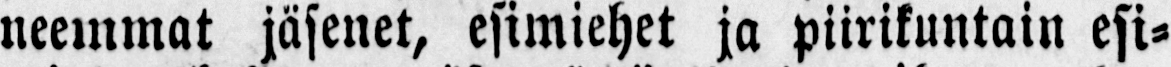neemmat jäsenet, esimiehet ja piirikuntain esi-
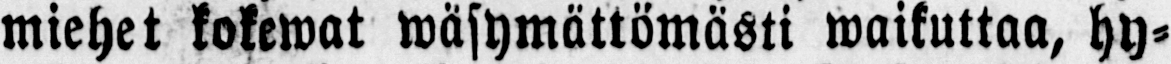miehet kokewat wasymättömästi waikuttaa, hy-
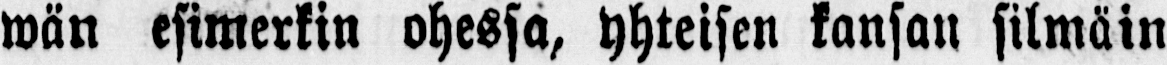wän esimerkin ohessa, yhteisen kansan silmäin
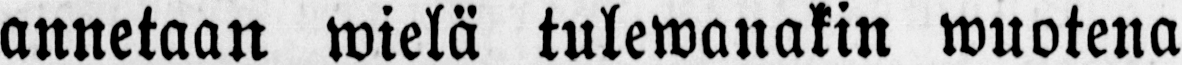annetaan wielä tulewanakin wuotena
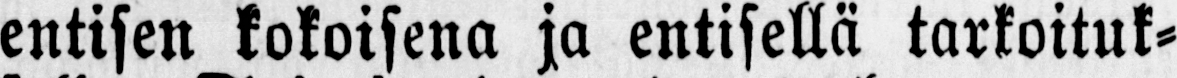entisen kokoisena ja entisellä tarkoituk-
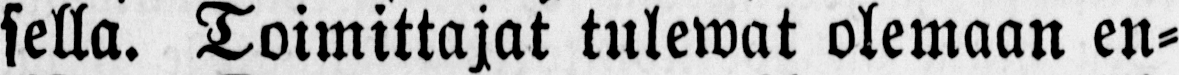sella. Toimittajat tulewat olemaan en-
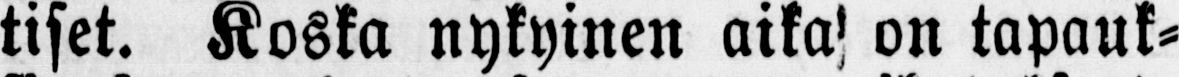tiset. Koska nykyinen aika on tapauk-
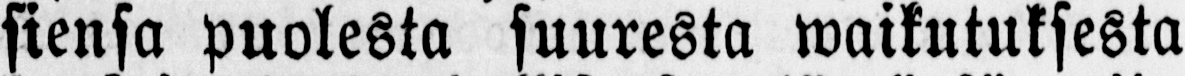siensa puolesta suuresta waikutuksesta
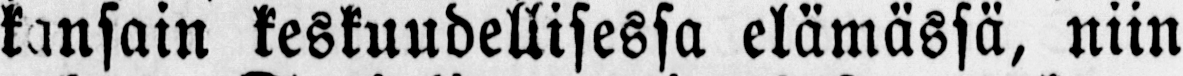kansain keskuudellisessa elämässä, niin
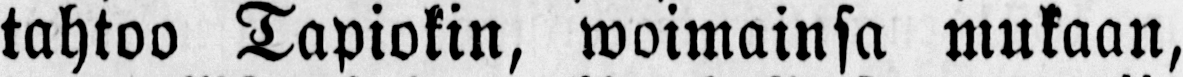tahtoo Tapiokin, woimainsa mukaan,
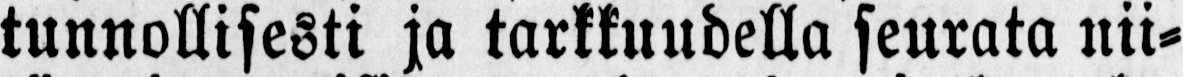tunnollisesti ja tarkkuudella seurata nii-
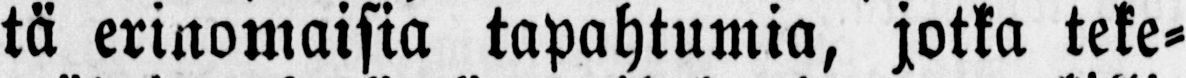tä erinomaisia tapahtumia, jotka teke-
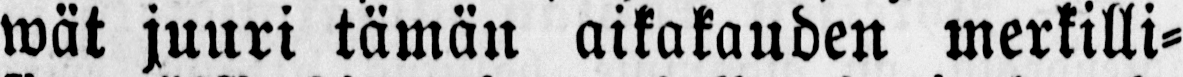wät juuri tämän aikakauden merkilli-
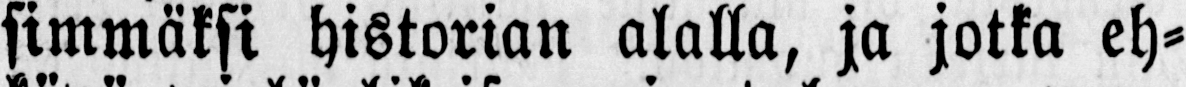simmäksi historian alalla, ja jotka eh-
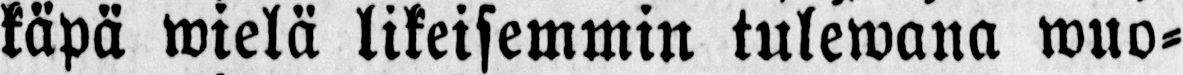käpä wielä likeisemmin tulewana wuo-
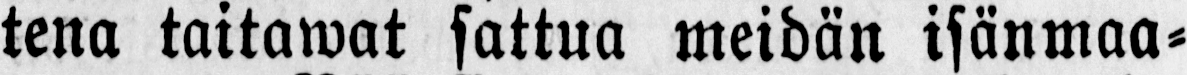tena taitawat sattua meidän isänmaa-
